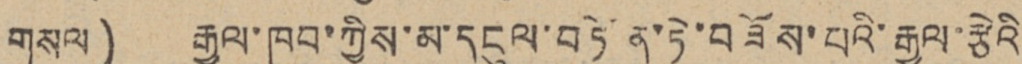གསལ) རྒྱལ་ཁབ་ཀྱིས་མ་དངུལ་བཏོན་ཏེ་བཟོས་པའི་རྒྱལ་རྩེའི
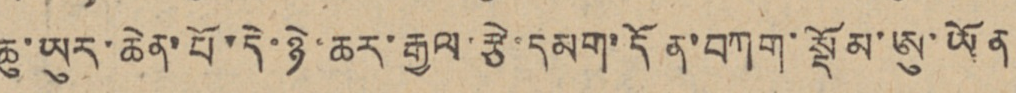ཆུ་ཡུར་ཆེན་པོ་དེ་ཉེ་ཆར་རྒྱལ་རྩེ་དམག་དོན་བཀག་སྡོམ་ཨུ་ཡོན
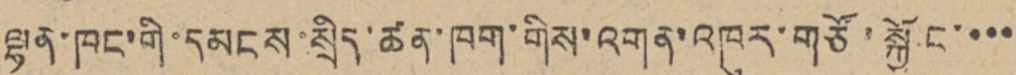ལྷན་ཁང་གི་དམངས་སྲིད་ཚན་ཁག་གིས་འགན་འཁུར་གཙོ་སྐྱོང་་་་
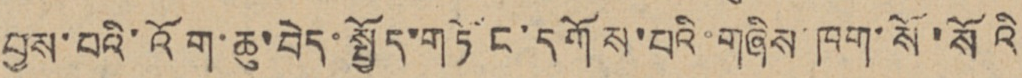བྱས་པའི་འོག་ཆུ་བེད་སྤྱོད་གཏོང་དགོས་པའི་གཞིས་ཁག་སོ་སོའི
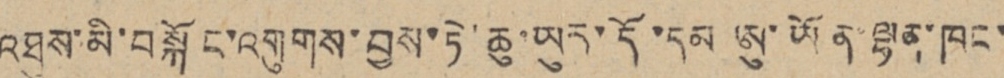འཐུས་མི་བསྐོང་འགུགས་བྱས་ཏེ་ཆུ་ཡུར་དོ་དམ ཨུ་ཡོན་ལྷན་ཁང་
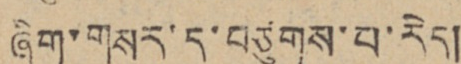ཞིག་གསར་བཙུགས་པ་རེད།
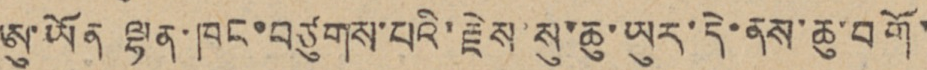ཨུ་ཡོན ལྷན་ཁང་བཙུགས་པའི་རྗེས་སུ་ཆུ་ཡུར་དེ་ནས་ཆུ་བགོ་་་
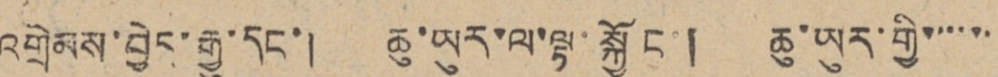འགྲེམས་བྱེད་རྒྱུ་དང་། ཆུ་ཡུར་ལ་ལྟ་སྐྱོང་། ཆུ་ཡུར་གྱི་་་་་་་
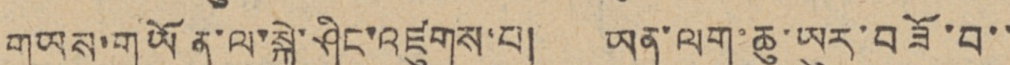གཡས་གཡོན་ལ་སྐྱེ་ཤིང་འཛུགས་པ། ཡན་ལག་ཆུ་ཡུར་བཟོ་བ་་
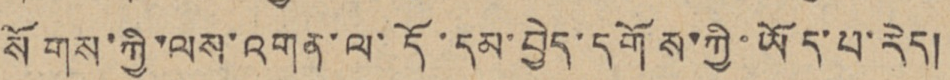སོགས་ཀྱི་ལས་འགན་ལ་དོ་དམ་བྱེད་དགོས་ཀྱི་ཡོད་པ་རེད།
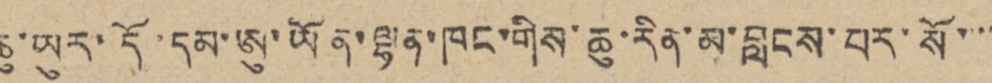ཆུ་ཡུར་དོ་དམ་ཨུ་ཡོན་ལྷན་ཁང་གིས་ཆུ་རིན་མ་བླངས་བར་སོ་་་་
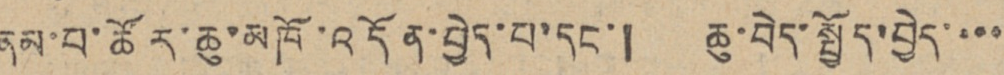ནམ་པ་ཚོར་ཆུ་མཁོ་འདོན་བྱེད་པ་དང་། ཆུ་བེད་སྤྱོད་བྱེད་་་་
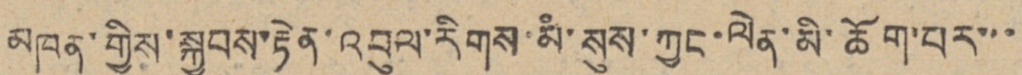མཁན་གྱིས་སྐྱབས་རྟེན་འབུལ་རིགས་མི་སུས་ཀྱང་ལེན་མི་ཆོག་པར་་་
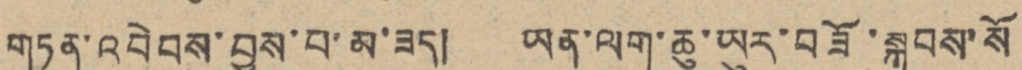གཏན་འབེབས་བྱས་པ་མ་ཟད། ཡན་ལག་ཆུ་ཡུར་བཟོ་སྐབས་སོ
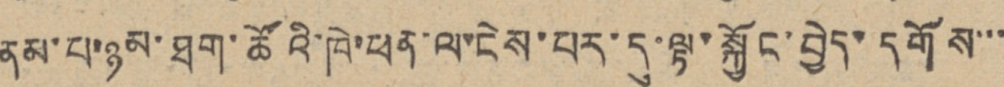ནམ་པ་ཉམ་ཐག་ཚོའི་ཁེ་ཕན་ལ་ངེས་པར་དུ་ལྟ་སྐྱོང་བྱེད་དགོས་་་
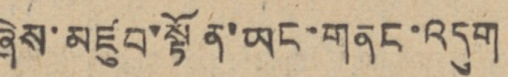ཞེས་མཛུབ་སྟོན་ཡང་གནང་འདུག
